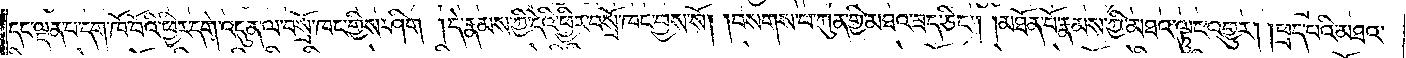དང་ལྡན་པ་དག་ཁོ་བོའི་ཕྱིར་དགེ་འདུན་ལ་བསྲོ་ཁང་གྱིས་ཤིག །དེ་རྣམས་ཀྱི་དེའི་ཕྱིར་བསྲོ་ཁང་བྱས་སོ། །བསགས་པ་ཀུན་གྱི་མཐའ་ཟད་ཅིང༌། །མཐོན་པོ་རྣམས་ཀྱི་མཐའ་ལྟུང་འགྱུར། །ཕྲད་པའི་མཐའ་
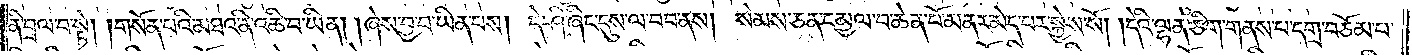ནི་བྲལ་པ་སྟེ། གསོན་པའི་མཐའ་ནི་འཆི་པ་ཡིན། ཞེས་བྱ་བ་ཡིན་པས། དེ་ཤི་ཞིང་དུས་ལ་བབ་ནས། སེམས་ཅན་དམྱལ་པ་ཆེན་པོ་མནར་མེད་པར་སྐྱེས་སོ། །དེའི་ལྷན་ཅིག་གནས་པ་དགྲ་བཅོམ་པ་
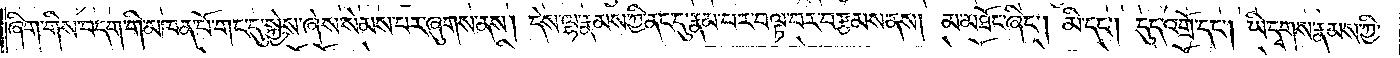ཞིག་གིས་བདག་གི་མཁན་པོ་གང་དུ་སྐྱེས་ཞེས་སེམས་པར་ཞུགས་ནས། དེས་ལྷ་རྣམས་ཀྱི་ནང་དུ་རྣམ་བར་བལྟ་པར་བརྩམས་ནས། མ་མཐོང་ཞིང༌། མི་དང༌། དུད་འགྲོ་དང༌། ཡི་དྭགས་རྣམས་ཀྱི་
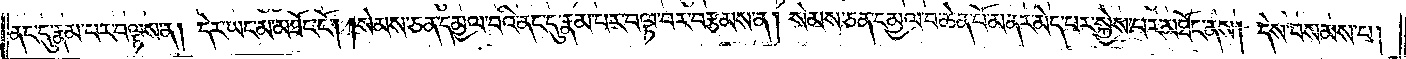ནང་དུ་རྣམ་པར་བལྟས་ན། དེར་ཡང་མ་མཐོང་ངོ༌། །སེམས་ཅན་དམྱལ་པའི་ནང་དུ་རྣམ་པར་བལྟ་བར་བརྩམས་ན། སེམས་ཅན་དམྱལ་པ་ཆེན་པོ་མནར་མེད་པར་སྐྱེས་པར་མཐོང་ནས། དེས་བསམས་པ་
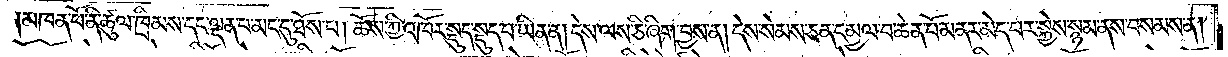།མཁན་པོ་ནི་ཚུལ་ཁྲིམས་དང་ལྡན་པ་མང་དུ་ཐོས་པ། ཆོས་ཀྱི་འཁོར་སྡུད་སྡུད་པ་ཡིན་ན། དེས་ལས་ཅི་ཞིག་བྱས་ན། དེས་སེམས་ཅན་དམྱལ་བ་ཆེན་པོ་མནར་མེད་པར་སྐྱེས་སྙམ་ནས་བསམས་ན།
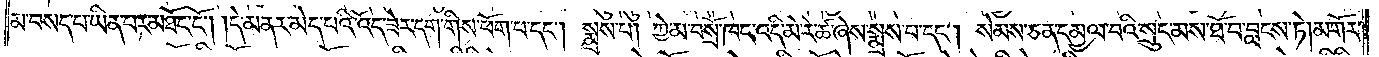མ་བསད་པ་ཡིན་པར་མཐོང་ངོ༌། །དེ་མནར་མེད་པའི་འོད་ཟེར་དག་གིས་ཕོག་པ་དང༌། སྨྲས་པ། ཀྱེ་མ་བསྲོ་ཁང་འདི་མེ་རེ་ཚ་ཞེས་སྨྲས་པ་དང༌། སེམས་ཅན་དམྱལ་བའི་སྲུང་མས་ཐོ་བ་བླངས་ཏེ། མགོར་
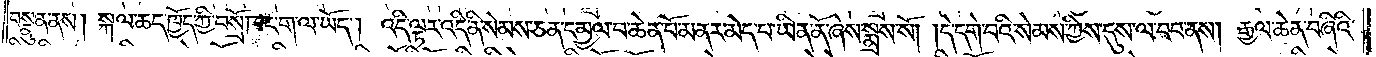བསྣུན་ནས། སྐལ་ཆད་ཁྱོད་ཀྱི་བསྲོ་ཁང་ག་ལ་ཡོད། འདི་ལྟར་འདི་ནི་སེམས་ཅན་དམྱལ་བ་ཆེན་པོ་མནར་མེད་པ་ཡིན་ནོ་ཞེས་སྨྲས་སོ། །དེ་དགེ་བའི་སེམས་ཀྱིས་དུས་ལ་བབ་ནས། རྒྱལ་ཆེན་བཞིའི་
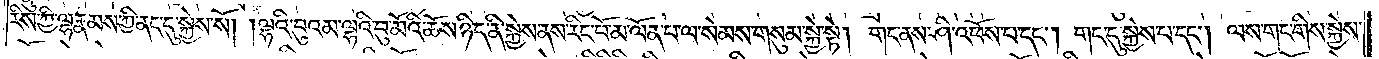རིས་ཀྱི་ལྷ་རྣམས་ཀྱི་ནང་དུ་སྐྱེས་སོ། །ལྷའི་བུའམ་ལྷའི་བུ་མོའི་ཆོས་ཉིད་ནི་སྐྱེས་ནས་རིང་པོ་མ་ལོན་པ་ལ་སེམས་གསུམ་སྐྱེ་སྟེ། གང་ནས་ཤི་འཕོས་པ་དང༌། གང་དུ་སྐྱེས་པ་དང༌། ལས་གང་གིས་སྐྱེས་
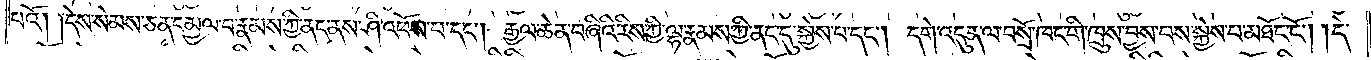པའོ། །དེས་སེམས་ཅན་དམྱལ་བ་རྣམས་ཀྱི་ནང་ནས་ཤི་འཕོས་བ་དང༌། རྒྱལ་ཆེན་བཞིའི་རིས་ཀྱི་ལྷ་རྣམས་ཀྱི་ནང་དུ་སྐྱེས་པ་དང༌། དགེ་འདུན་ལ་བསྲོ་ཁང་གི་ཁྲུས་བྱས་པས་སྐྱེས་པ་མཐོང་ངོ༌། །དེ་
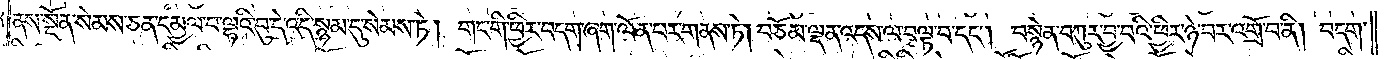ནས་སྔོན་སེམས་ཅན་དམྱལ་བ་ལྷའི་བུ་དེ་འདི་སྙམ་དུ་སེམས་ཏེ། གང་གི་ཕྱིར་བདག་ཞག་ལོན་པར་གནས་ཏེ། བཅོམ་ལྡན་འདས་ལ་བལྟ་བ་དང༌། བསྙེན་བཀུར་བྱ་བའི་ཕྱིར་ཉེ་བར་འགྲོ་བ་ནི། བདག་
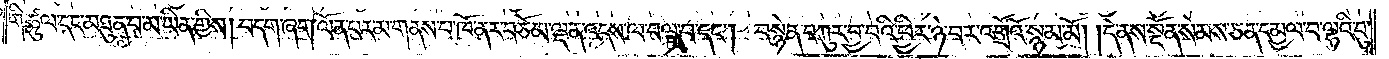གི་ཚུལ་དང་མཐུན་པ་མ་ཡིན་གྱིས། བདག་ཞག་ལོན་པར་མ་གནས་པ་ཁོ་ནར་བཅོམ་ལྡན་འདས་ལ་བལྟ་བ་དང༌། བསྙེན་བཀུར་བྱ་བའི་ཕྱིར་ཉེ་བར་འགྲོའོ་སྙམ་མོ། །དེ་ནས་སྔོན་སེམས་ཅན་དམྱལ་བ་ལྷའི་བུ་
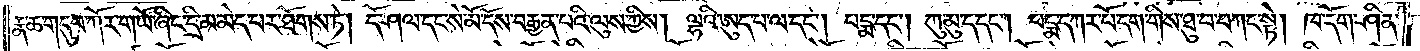རྣ་ཆ་གདུབ་བགོར་གཡོ་ཞིང་དྲི་མ་མེད་པར་ཐོགས་ཏེ། དོ་ཤལ་དང་སེ་མོ་དོས་བརྒྱན་པའི་ལུས་ཀྱིས། ལྷའི་ཨུད་པ་ལ་དང༌། པདྨ་དང༌། ཀུ་མུ་ད་དང༌། པདྨ་དཀར་པོ་དག་གིས་ཐུ་བ་བཀང་སྟེ། ཁ་དོག་ཤིན་
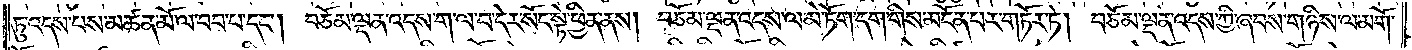ཏུ་འདས་པས་མཚན་མོ་ལ་བབ་པ་དང༌། བཅོམ་ལྡན་འདས་ག་ལ་བ་དེར་སོང་སྟེ་ཕྱིན་ནས། བཅོམ་ལྡན་འདས་ལ་མེ་ཏོག་དག་གིས་མངོན་པར་གཏོར་ཏེ། བཅོམ་ལྡན་འདས་ཀྱི་ཞབས་གཉིས་ལ་མགོ་
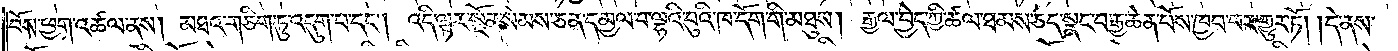ངོས་ཕྱག་འཚལ་ནས། མཐའ་གཅིག་ཏུ་འདུག་པ་དང༌། འདི་ལྟར་སྔོན་སེམས་ཅན་དམྱལ་བ་ལྷའི་བུའི་ཁ་དོག་གི་མཐུས། རྒྱལ་བྱེད་ཀྱི་ཚལ་ཐམས་ཅད་སྣང་བ་རྒྱ་ཆེན་པོས་ཁྱབ་པར་གྱུར་ཏོ། །དེ་ནས་
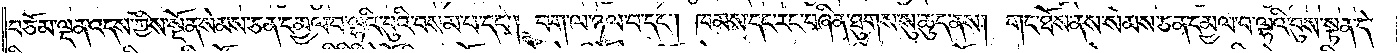བཅོམ་ལྡན་འདས་ཀྱིས་སྔོན་སེམས་ཅན་དམྱལ་བ་ལྷའི་བུའི་བསམ་པ་དང༌། བག་ལ་ཉལ་པ་དང༌། ཁམས་དང་རང་བཞིན་ཐུགས་སུ་ཆུད་ནས། གང་ཐོས་ནས་སེམས་ཅན་དམྱལ་བ་ལྷའི་བུས་སྟན་དེ་
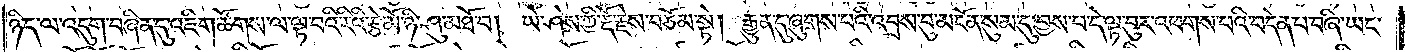ཉིད་ལ་འདུག་བཞིན་དུ་འཇིག་ཚོགས་ལ་ལྟ་བའི་རིའི་རྩེ་མོ་ཉི་ཤུ་མཐོ་བ། ཡེ་ཤེས་ཀྱི་རྡོ་རྗེས་བཅོམ་སྟེ། རྒྱུན་དུ་ཞུགས་པའི་འབྲས་བུ་མངོན་སུམ་དུ་བྱས་པ་དེ་ལྟ་བུར་འཕགས་པའི་བདེན་པ་བཞི་ཡང་
